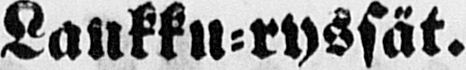Laukku-ryssät.
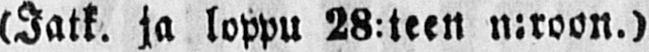(Jatk. ja loppu 28:teen n:roon.)
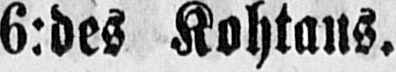6:des Kohtaus.
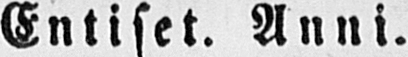Entiset. Anni.
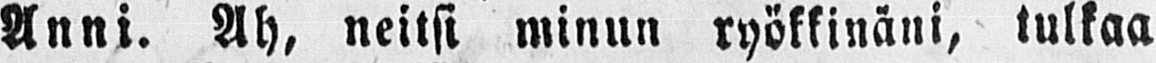Anni. Ah, neitsi minun ryökkinäni, tulkaa
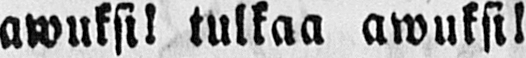awuksi! tulkaa awuksi!
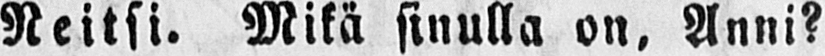Neitsi. Mikä sinulla on, Anni?
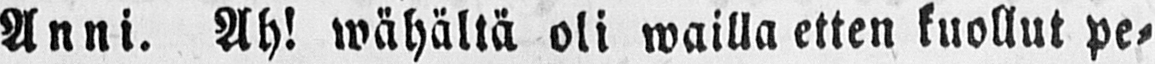Anni. Ah! wähältä oli wailla etten kuollut pe-
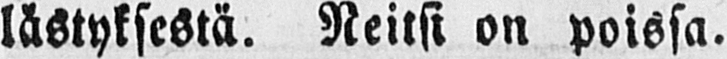lästyksestä. Neitsi on poissa.
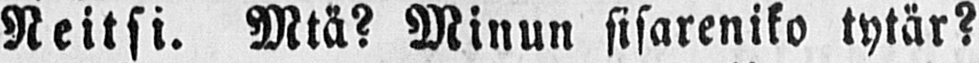Neitsi. Mtä? Minun sisareniko tytär?
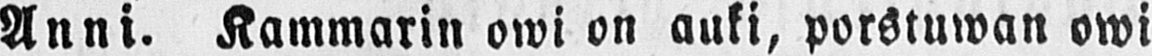Anni. Kammarin owi on auki, porstuwan owi
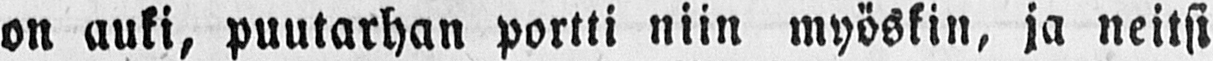on auki, puutarhan portti niin myöskin, ja neitsi
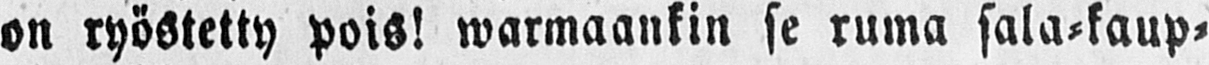on ryöstetty pois! warmaankin se ruma sala-kaup-
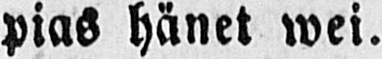pias hänet wei.
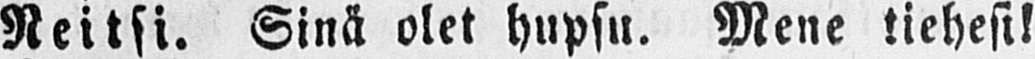Neitsi. Sinä olet hupsu. Mene tiehesi!
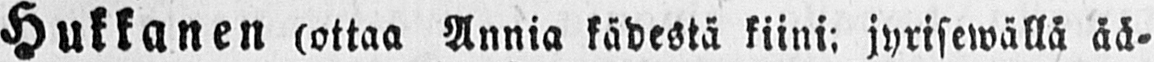Hukkanen (ottaa Annia kädestä kiini; jyrisewällä ää-
